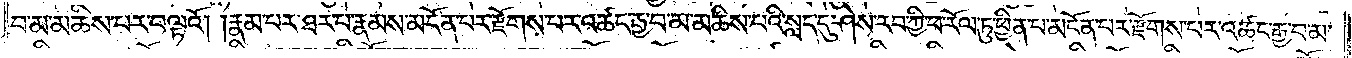བ་མ་མཆིས་པར་བལྟའོ། །རྣམ་པར་ཐར་པ་རྣམས་མངོན་པར་རྫོགས་པར་འཚང་རྒྱ་བ་མ་མཆིས་པའི་སླད་དུ་ཤེས་རབ་ཀྱི་ཕ་རོལ་ཏུ་ཕྱིན་པ་མངོན་པར་རྫོགས་པར་འཚང་རྒྱ་བ་མ་
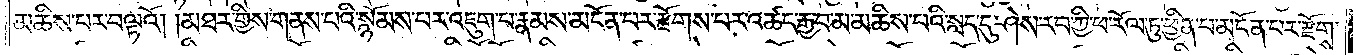མཆིས་པར་བལྟའོ། །མཐར་གྱིས་གནས་པའི་སྙོམས་པར་འཇུག་པ་རྣམས་མངོན་པར་རྫོགས་པར་འཚང་རྒྱ་བ་མ་མཆིས་པའི་སླད་དུ་ཤེས་རབ་ཀྱི་ཕ་རོལ་ཏུ་ཕྱིན་པ་མངོན་པར་རྫོགས་
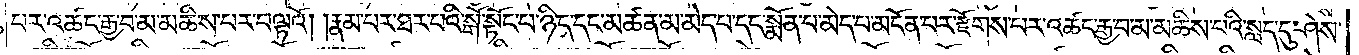པར་འཚང་རྒྱ་བ་མ་མཆིས་པར་བལྟའོ། །རྣམ་པར་ཐར་པའི་སྒོ་སྟོང་པ་ཉིད་དང་མཚན་མ་མེད་པ་དང་སྨོན་པ་མེད་པ་མངོན་པར་རྫོགས་པར་འཚང་རྒྱ་བ་མ་མཆིས་བའི་སླད་དུ་ཤེས་
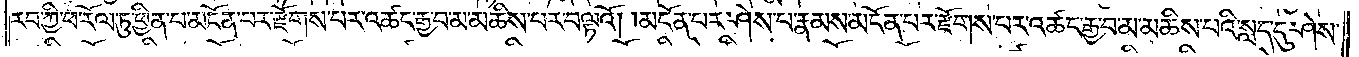རབ་ཀྱི་ཕ་རོལ་ཏུ་ཕྱིན་པ་མངོན་པར་རྫོགས་པར་འཚང་རྒྱ་བ་མ་མཆིས་པར་བལྟའོ། །མངོན་པར་ཤེས་པ་རྣམས་མངོན་པར་རྫོགས་པར་འཚང་རྒྱ་བ་མ་མཆིས་པའི་སླད་དུ་ཤེས་
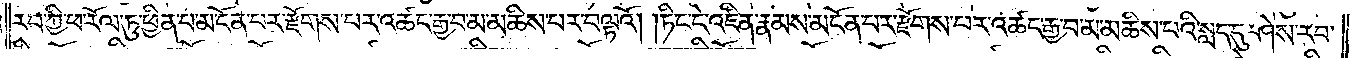རབ་ཀྱི་ཕ་རོལ་ཏུ་ཕྱིན་པ་མངོན་པར་རྫོགས་པར་འཚང་རྒྱ་བ་མ་མཆིས་པར་བལྟའོ། །ཏིང་ངེ་འཛིན་རྣམས་མངོན་པར་རྫོགས་པར་འཚང་རྒྱ་བ་མ་མཆིས་པའི་སླད་དུ་ཤེས་རབ་
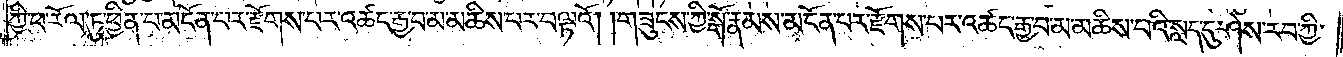ཀྱི་ཕ་རོལ་ཏུ་ཕྱིན་པ་མངོན་པར་རྫོགས་པར་འཚང་རྒྱ་བ་མ་མཆིས་པར་བལྟའོ། །གཟུངས་ཀྱི་སྒོ་རྣམས་མངོན་པར་རྫོགས་པར་འཚང་རྒྱ་བ་མ་མཆིས་པའི་སླད་དུ་ཤེས་རབ་ཀྱི་
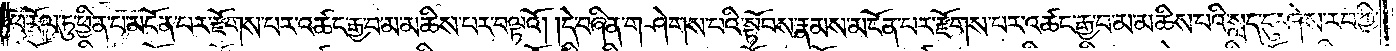ཕ་རོལ་ཏུ་ཕྱིན་པ་མངོན་པར་རྫོགས་པར་འཚང་རྒྱ་བ་མ་མཆིས་པར་བལྟའོ། །དེ་བཞིན་གཤེགས་པའི་སྟོབས་རྣམས་མངོན་པར་རྫོགས་པར་འཚང་རྒྱ་བ་མ་མཆིས་པའི་སླད་དུ་ཤེས་རབ་ཀྱི་
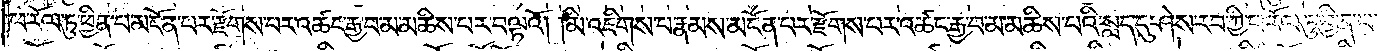ཕ་རོལ་ཏུ་ཕྱིན་པ་མངོན་པར་རྫོགས་པར་འཚང་རྒྱ་བ་མ་མཆིས་པར་བལྟའོ། །མི་འཇིགས་པ་རྣམས་མངོན་པར་རྫོགས་པར་འཚང་རྒྱ་བ་མ་མཆིས་པའི་སླད་དུ་ཤེས་རབ་ཀྱི་ཕ་རོལ་ཏུ་ཕྱིན་པ་
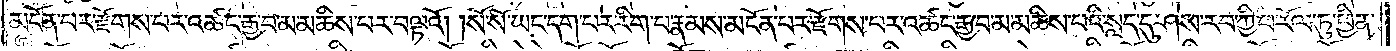མངོན་པར་རྫོགས་པར་འཚང་རྒྱ་བ་མ་མཆིས་པར་བལྟའོ། །སོ་སོ་ཡང་དག་པར་རིག་པ་རྣམས་མངོན་པར་རྫོགས་བར་འཚང་རྒྱ་བ་མ་མཆིས་པའི་སླད་དུ་ཤེས་རབ་ཀྱི་ཕ་རོལ་ཏུ་ཕྱིན་
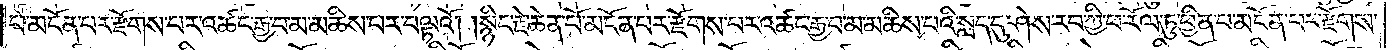པ་མངོན་པར་རྫོགས་པར་འཚང་རྒྱ་བ་མ་མཆིས་པར་བལྟའོ། །སྙིང་རྗེ་ཆེན་པོ་མངོན་པར་རྫོགས་པར་འཚང་རྒྱ་བ་མ་མཆིས་པའི་སླད་དུ་ཤེས་རབ་ཀྱི་ཕ་རོལ་ཏུ་ཕྱིན་པ་མངོན་པར་རྫོགས་
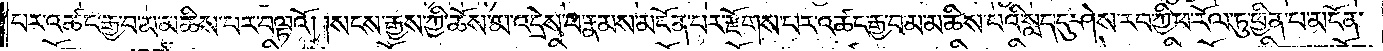པར་འཚང་རྒྱ་བ་མ་མཆིས་པར་བལྟའོ། །སངས་རྒྱས་ཀྱི་ཆོས་མ་འདྲེས་པ་རྣམས་མངོན་པར་རྫོགས་པར་འཚང་རྒྱ་བ་མ་མཆིས་པའི་སླད་དུ་ཤེས་རབ་ཀྱི་ཕ་རོལ་ཏུ་ཕྱིན་པ་མངོན་
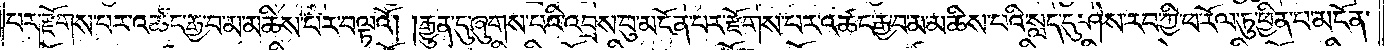པར་རྫོགས་པར་འཚང་རྒྱ་བ་མ་མཆིས་པར་བལྟའོ། །རྒྱུན་དུ་ཞུགས་པའི་འབྲས་བུ་མངོན་པར་རྫོགས་པར་འཚང་རྒྱ་བ་མ་མཆིས་པའི་སླད་དུ་ཤེས་རབ་ཀྱི་ཕ་རོལ་ཏུ་ཕྱིན་པ་མངོན་
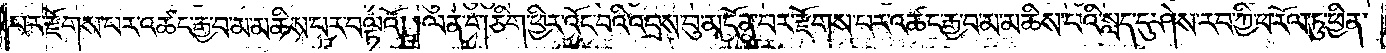པར་རྫོགས་པར་འཚང་རྒྱ་བ་མ་མཆིས་པར་བལྟའོ། །ལན་གཅིག་ཕྱིར་འོང་བའི་འབྲས་བུ་མངོན་པར་རྫོགས་པར་འཚང་རྒྱ་བ་མ་མཆིས་བའི་སླད་དུ་ཤེས་རབ་ཀྱི་ཕ་རོལ་ཏུ་ཕྱིན་
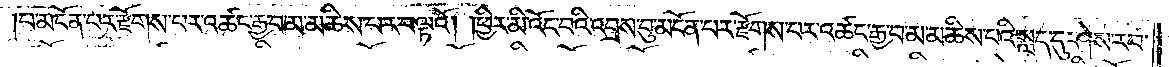པ་མངོན་པར་རྫོགས་པར་འཚང་རྒྱ་བ་མ་མཆིས་པར་བལྟའོ། །ཕྱིར་མི་འོང་བའི་འབྲས་བུ་མངོན་པར་རྫོགས་པར་འཚང་རྒྱ་བ་མ་མཆིས་པའི་སླད་དུ་ཤེས་རབ་
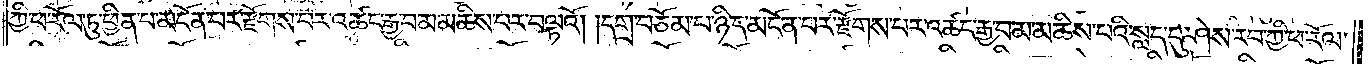ཀྱི་ཕ་རོལ་ཏུ་ཕྱིན་པ་མངོན་པར་རྫོགས་པར་འཚང་རྒྱ་བ་མ་མཆིས་པར་བལྟའོ། །དགྲ་བཅོམ་པ་ཉིད་མངོན་པར་རྫོགས་པར་འཚང་རྒྱ་བ་མ་མཆིས་པའི་སླད་དུ་ཤེས་རབ་ཀྱི་ཕ་རོལ་
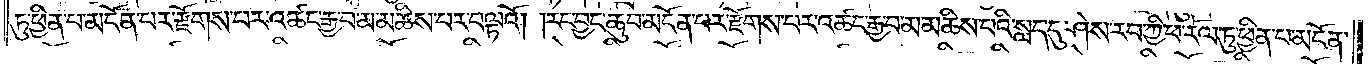ཏུ་ཕྱིན་པ་མངོན་པར་རྫོགས་པར་འཚང་རྒྱ་བ་མ་མཆིས་པར་བལྟའོ། །རང་བྱང་ཆུབ་མངོན་པར་རྫོགས་པར་འཚང་རྒྱ་བ་མ་མཆིས་པའི་སླད་དུ་ཤེས་རབ་ཀྱི་ཕ་རོལ་ཏུ་ཕྱིན་པ་མངོན་
